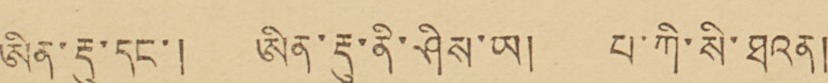ཨིན་རྡུ་དང་། ཨིན་རྡུ་ནི་ཤིས་ཡ། པ་ཀི་སི་ཐའན།
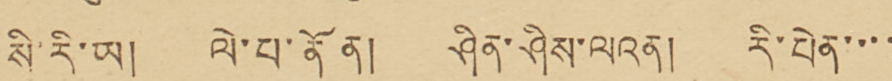སི་རི་ཡ། ལེ་པ་ནོན། ཤིན་ཤིས་ལའན། རི་པེན་་་་་
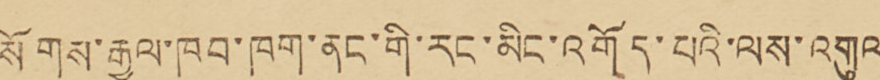སོགས་རྒྱལ་ཁབ་ཁག་ནང་གི་རང་མིང་འགོད་པའི་ལས་འགུལ་
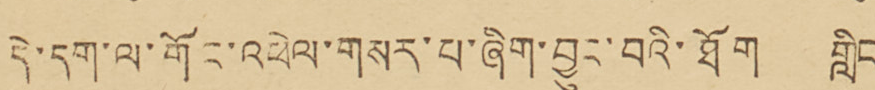དེ་དག་ལ་གོང་འཕེལ་གསར་པ་ཞིག་བྱུང་བའི་ཐོག གླིང་་
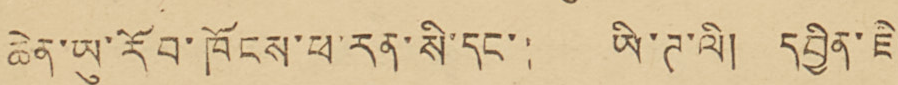ཆེན་ཡུ་རོབ་ཁོངས་ཕ་རན་སི་དང་། ཡི་ཊ་ལི། དབྱིན་ཇི།
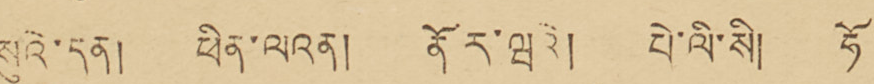སུའེ་དན། ཕིན་ལའན། ནོར་ཝའི། པེ་ལི་སི། ཧོ་་
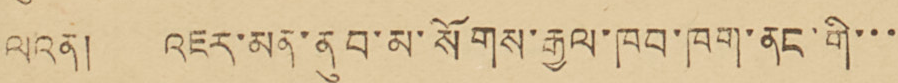ལའན། འཇར་མན་ནུབ་མ་སོགས་རྒྱལ་ཁབ་ཁག་ནང་གི་་་་
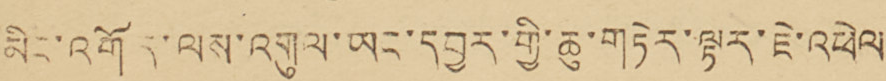མིང་འགོད་ལས་འགུལ་ཡང་དབྱར་གྱི་ཆུ་གཏེར་ལྟར་ཇེ་འཕེལ་་
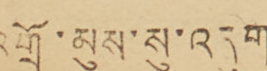འགྲོ་མུས་སུ་འདུག
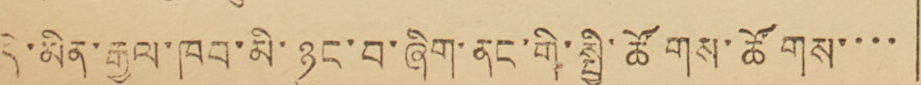དེ་མིན་རྒྱལ་ཁབ་མི་ཉུང་བ་ཞིག་ནང་གི་སྤྱི་ཚོགས་ཚོགས་་་་
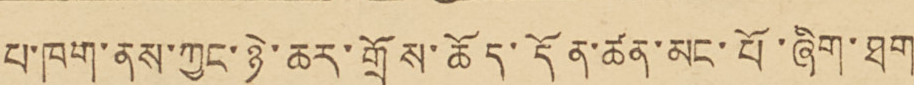པ་ཁག་ནས་ཀྱང་ཉེ་ཆར་གྲོས་ཆོད་དོན་ཚན་མང་པོ་ཞིག་ཐག
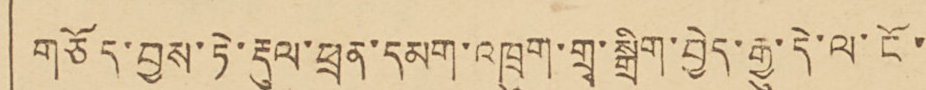གཅོད་བྱས་ཏེ་རྡུལ་ཕྲན་དམག་འཁྲུག་གྲྭ་སྒྲིག་བྱེད་རྒྱུ་དེ་ལ་ངོ་་
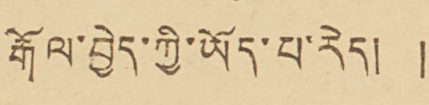རྒོལ་བྱེད་ཀྱི་ཡོད་པ་རེད། །
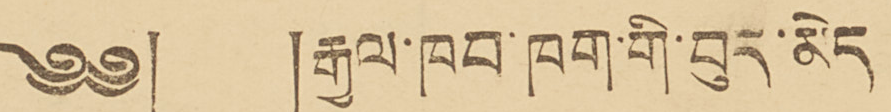༄༅། །རྒྱལ་ཁབ་ཁག་གི་བུད་མེད
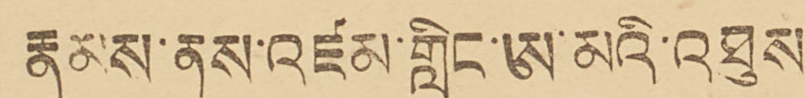རྣམས་ནས་འཛམ་གླིང་ཨ་མའི་འཐུས་
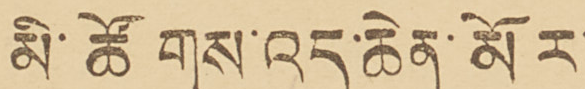མི་ཚོགས་འདུ་ཆེན་མོར་
